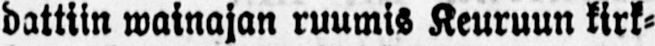dattiin wainajan ruumis Keuruun kirk-
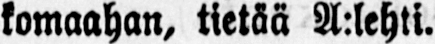komaahan, tietää A:lehti.
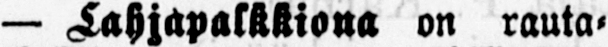— Lahjapalkkiona on rauta-
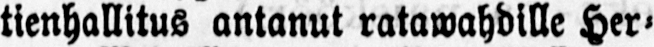tienhallitus antanut ratawahdille Her-
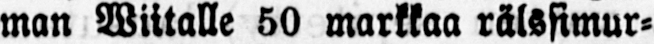man Wiitalle 50 markkaa rälssimur-
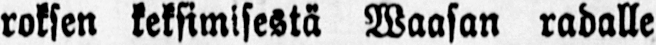roksen keksimisestä Waasan radalle
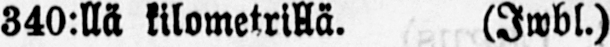340:llä kilometrillä. (Jwbl.)
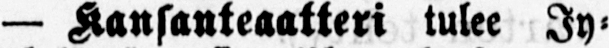— Kansanteaatteri tulee Jy-
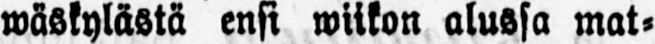wäskylästä ensi wiikon alussa mat-
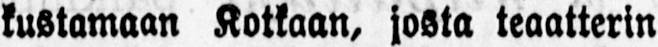kustamaan Kotkaan, josta teaatterin
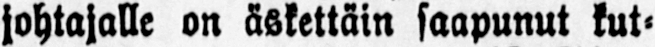johtajalle on äskettäin saapunut kut-
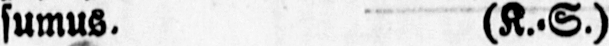sumus. (K.-S.)
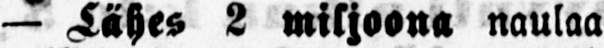— Lähes 2 miljoona naulaa
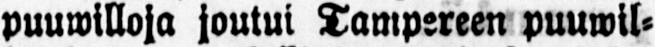puuwilloja joutui Tampereen puuwil-
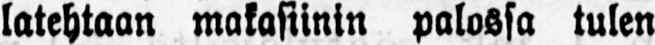latehtaan makasiinin palossa tulen
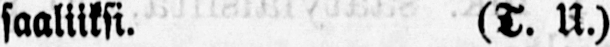saaliiksi. (T. U.)
